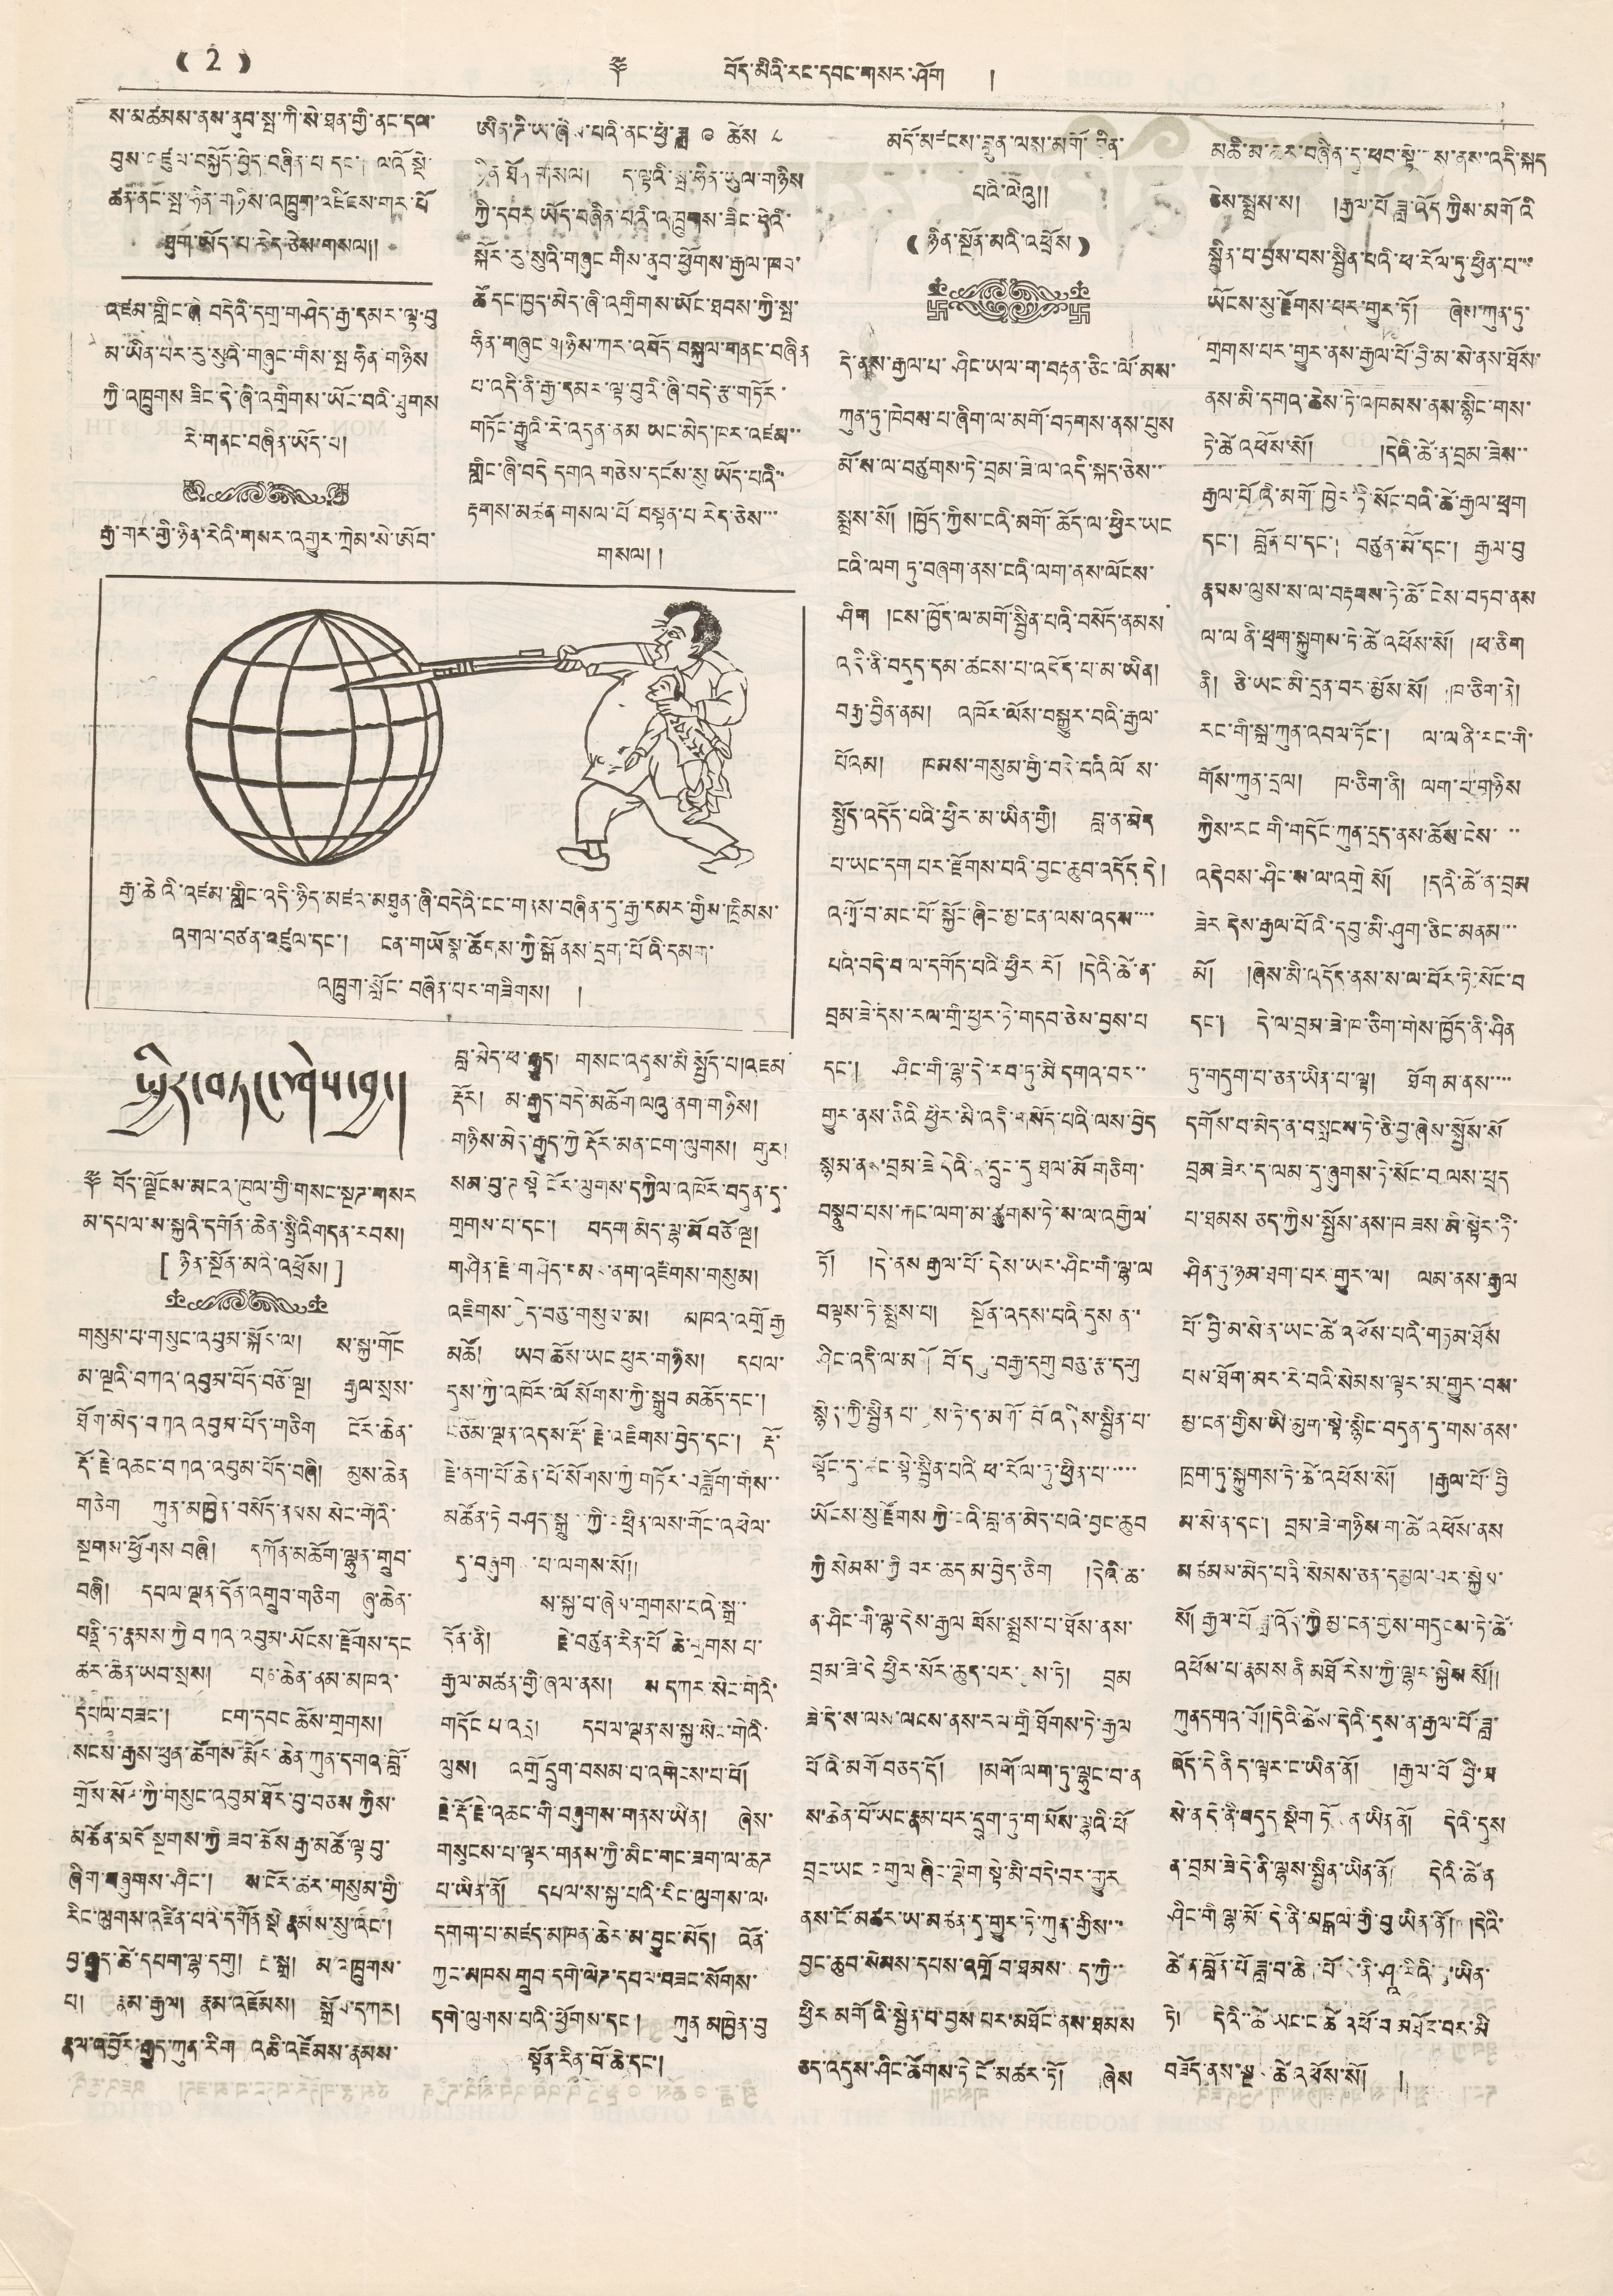(( 2 )) ༈ བོད་མིའི་རང་དབང་གསར་ཤོག །
ས་མཚམས་ནས་ནུབ་སྤ་ཀི་སི་ཐན་གྱི་ནང་དལ་
བུས་འཛུལ་བསྐྱོད་བྱེད་བཞིན་པ དང་། ལའོ སྡེ
ཚང་ནང་སྤ་ཧིན་གཉིས་འཁྲུག་འཛུངས་གར་པོ
ཐུག་ཡོད་པ་རེད་ཅེས་གསལ།།
འཛམ་གླིང་ཞི བདེའི་དགྲ་གཤེད་རྒྱ་དམར་ལྟ་བུ
མ་ཡིན་པར་རུ་སུའི་གཞུང་གིས་སྤ་ཧིན་གཉིས
ཀྱི་འཁྲུགས་ཟིང་དེ་ཞེ་འགྲིགས་ཡོང་བའི་ཐུགས
རེ་གནང་བཞིན་ཡོད་པ།
རྒྱ་གར་གྱི་ཉིན་རེའི་གསར་འགྱུར་ཀྲེམ་སེ་ཨོབ་
ཨིན་ཌི་ཡ་ཟྒེས་པའི་ནང་ཕྱི་ཟླ ༩ ཚེས ༨
ཉིན་ཐོན་གསལ། ད་ལྟའི་སྤ་ཧིན་ཡུལ་གཉིས
ཀྱི་དབར ཡོད་བཞིན་པའི་འཁྲུགས་ཟིང་དེའི་
སྐོར་རུ་སུའི་གཞུང གིས་ནུབ་ཕྱོགས་རྒྱལ་ཁབ་
ཚོ དང་ཁྱད་མེད་ཞི་འགྲིགས་ཡོང་ཐབས་ཀྱི་སྤ་
ཧིན་གཞུང་གཉིས་ཀར་བོད་བསྐུལ་གནང་བཞིན
པ་འདི་ནི་རྒྱ་དམར་ལྟ་བུའི་ཞི་བདེ་རྩ་གཏོར་
གཏོང་རྒྱུའི་རེ་འདུན་ནམ ཡང་མེད་ཁར་འཛམ་་
གླིང་ཞི་བདེ དགའ གཅེས་དངོས་སུ ཡོད་པའི་་
རྟགས་མཚན གསལ་པོ བསྟན་པ་རེད་ཅེས་་་
གསལ། །
རྒྱ་ཆེའི་འཛམ་གླིང་འདི་ཉིད་མཛའ་མཐུན་ཞི་བདེའི་ངང་གནས་བཞིན་དུ་རྒྱ་དམར་གྱིས་ཁྲིམས་
འགལ་བཙན་འཛུལ་དང་། ངན་གཡོ སྣ་ཚོགས་ཀྱི་སྒོ ནས་དྲག་པོའི་དམག་
འཁྲུག་སློང་བཞིན་པར་གཟིགས། །
རང་དབང་
སྤྱིར་བཏང་ཤེས་བྱ།
༈ བོད་ལྗོངས་མངའ་ཁུལ་གྱི་གསང་སྔཌ་གསར
མ་དཔལ་ས་སྐྱའི་དགོན་ཆེན་སྤྱིའི་གདན་རབས།
[ ཉིན་སྔོན་མའི་འཕྲོས། ]
གསུམ་པ་གསུང་འབུམ་སྐོར་ལ། ས་སྐྱ་གོང
མ་ལྔའི་བཀའ་འབུམ་པོད་བཅི་ལྔ། རྒྱལ་སྲས་
ཐོག་མེད་བཀའ འབུམ་པོད་གཅིག ངོར་ཆེན་
རྡོ་རྗེ་འཆང་བཀའ་འབུམ་པོད་བཞི། མུས་ཆེན
གཅིག ཀུན་མཁྱེན་བསོད་ནམས སེང་གེའི་
སྔགས་ཕྱོགས བཞི། དཀོན་མཆོག་ལྷུན་གྲུབ་
བཞི། དཔལ་ལྡན་དོན་གྲུབ་གཅིག ཞུ་ཆེན་
པནྡི་ཏ་རྣམས་ཀྱི བཀའ་འབུམ་ཡོངས་རྫོགས་དང
ཚར་ཆེན་ཡབ་སྲས། པཎ་ཆེན་ནམ་མཁའ་
དཔལ་བཟང་། ངག་དབང ཆོས་གྲགས།
སངས་རྒྱས་ཕུན་ཚོགས་རྨོར་ཆེན་ཀུན་དགའ་བློ་
གྲོས་སོཌ་ཀྱི་གསུང་འབུམ་ཐོར་བུ་བཅས ཀྱིས་
མཚོན་མདོ་སྔགས་ཀྱི་ཟབ་ཆོས་རྒྱ་མཚོ་ལྟ་བུ་
ཞིག་བཞུགས་ཤིང་། ས་ངོར་ཚར་གསུམ་གྱི་
རིང་ལུགས་འཛིན་པའི་དགོན སྡེ རྣམས་སུ་འང་།
བྱ་རྒྱུད་ཚེ་དཔག་ལྷ་དགུ། རྔ་སྒྲ། མ་འཁྲུགས་
པ། རྣམ་རྒྱལ། རྣམ་འཇོམས། སྒྲོལ་དཀར།
རྣལ་འབྱོལ་རྒྱུད་ཀུན་རིག འཆི་འཛོམས་རྣམས་
བླ་མེད་ཕ་རྒྱུད། གསང་འདུས་མི སྤྱོད་པ།འཇམ་
རྡོར། མ་རྒྱུད་བདེ་མཆོག ལའུ་ནག་གཉིས།
གཉིས་མེད་རྒྱུད་ཀྱེ རྡོར་མན་ངག་ལུགས། གུར།
སམ་བུ་ཊ ངོར་ལུགས་དཀྱིལ་འཁོར་བདུན་དུ་
གྲགས་པ་དང་། བདག་མེད་ལྷ་མོ་བཅོ་ལྔ།
གཤིན་རྗེ་གཤེད་མང་ནག་འཇིགས་གསུམ།
འཇིགས་བྱེད་བཅུ་གསུམ་མ། མཁའ་འགྲོ རྒྱ
མཚོ། ཡབ་ཆོས་ཡང ཕུར་གཉིས། དཔལ་
དུས་ཀྱི་འཁོར་ལོ སོགས་ཀྱི་སྒྲུབ མཆོད་དང་།
བཅོམ་ལྡན་འདས་རྡོ་རྗེ་འཇིགས་བྱེད་དང་། རྡོ་
རྗེ་ནག་པོ་ཆེན་པོ་སོགས་ཀྱི་གཏོར་བཟློག་གིས་་
མཚོན་ཏེ བཤད་སྒྲུབ་ཀྱི་འཕྲིན་ལས་གོང་འཕེལ་
དུ་བཞུགས་པ་ལགས་སོ།།
ས་སྐྱ་པ་ཞེས་གྲགས་པའི་སྒྲ་་
དོན་ནི། རྗེ་བཙུན་རིན་པོ ཆེ་གྲགས པ་
རྒྱལ་མཚན་གྱི་ཞལ་ནས། ས དཀར་སེང་གེའི་
གདོང་པ་འདྲ། དཔལ་ལྡན་ས་སྐྱ་སེང་གེའི་
ལུས། འགྲོ དྲུག་བསམ་པ་འགེངས་པ་པོ།
རྗེ་རྡོ་རྗེ་འཆང་གི་བཞུགས་གནས་ཡིན། ཞེས་
གསུངས་པ་ལྟར་གནས་ཀྱི་མིང་གང་ཟག་ལ་ཆཌ
པ་ཡིན་ནོ། དཔལ་ས་སྐྱ་པའི་རིང་ལུགས་ལ་
དགག་པ་མཛད་མཁན་ཆེར་མ་བྱུང་མོད། འོན་
ཀྱང་མཁས་གྲུབ་དགེ་ལེཌ་དཔལ་བཟང་སོགས་
དགེ་ལུགས་པའི་ཕྱོགས་དང་། ཀུན མཁྱེན་བུ
སྟོན་རིན་པོ་ཆེ་དང་།
མདོ་མཛངས་བླུན་ལས་མགོ་བྱིན་
པའི་ལེའུ།།
(( ཉིན་སྔོན་མའི་འཕྲོས ))
དེ་ནས་རྒྱལ་པ་ཤིང་ཡལ་ག་བརྟན་ཅིང་ལོ་མས་
ཀུན་ཏུ་ཁེབས་པ་ཞིག་ལ་མགོ་བཏགས་ནས་པུས
མོ་ས་ལ་བཙུགས་ཏེ་བྲམ་ཟེ་ལ་འདི་སྐད་ཅེས་་
སྨྲས་སོ། །ཁྱོད་ཀྱིས་ངའི་མགོ་ཆོད་ལ་ཕྱིར་ཡང
ངའི་ལག ཏུ་བཞག་ནས་ངའི་ལག་ནས་ལོངས་
ཤོག །ངས་ཁྱོད་ལ་མགོ་སྦྱིན་པའི་བསོད་ནམས
འདི་ནི་བདུད་དམ་ཚངས་པ་འདོད་པ་མ་ཡིན།
བརྒྱ་བྱིན་ནམ། འཁོར་ལོས་བསྒྱུར་བའི་རྒྱལ་
པོའམ། ཁམས་གསུམ་གྱི་བདེ་བའི་ལོ ས་
སྤྱོད་འདོད་པའི་ཕྱིར་མ་ཡིན་གྱི། བླ་ན་མེད
པ་ཡང་དག པར་རྫོགས་པའི་བྱང་ཆུབ་འདོད དེ།
འགྲོ་བ་མང་པོ་སྐྱོང་ཞིང་མྱ་ངན་ལས་འདས་་་་
པའི་བདེ་བ་ལ་དགོད་པའི་ཕྱིར རོ། །དེའི་ཚེ་ན་
བྲམ་ཟེ་དས་རལ་གྲི་ཕྱར་ཏེ་གདབ་ཅེས་བྱས་པ
དང་། ཤིང་གི་ལྷ་ཏེ་རབ་ཏུ་མི་དགའ་བར་་
གྱུར་ནས་ཅིའི ཕྱིར་མི་འདི་གསོད་པའི་ལས་བྱེད
སྙམ་ནས་བྲམ་ཟེ དེའི་ ་དྲུང་དུ ཐལ་མོ གཅིག་
བསྣུབ་པས་རྐང་ལག་མ་ཚུགས་ཏེ་ས་ལ་འགྱེལ་
ཏོ། །དེ་ནས་རྒྱལ་པོ་དེས་ཡར་ཤིང་གི་ལྷ་ལ་
བལྟས་ཏེ་སྨྲས་པ། སྔོན་འདས་པའི་དུས ན་་
ཤིང་འདི་ལ་མགོ བོ་དགུ་བརྒྱ་དགུ བཅུ་རྩ་དགུ
སྙེད་ཀྱི་སྦྱིན པ་བྱས་ཏེ་ད་མགོ་བོ་འདིས་སྦྱིན་པ་
སྙོང་དུ་ཚང་སྟེ་སྦྱིན་པའི ཕ་རོལ་རུ་ཕྱིན་པ་་་་་
ཡོངས་སུ་རྫོགས ཀྱི་ངའི་བླ་ན་མེད་པའི་བྱང་ཆུབ
ཀྱི སེམས་ཀྱི་བར་ཆད་མ་བྱེད་ཅིག །དེའི་ཆ་
ན་ཤིང་གི་ལྷ་དེས་རྒྱལ པོས་སྨྲས་པ་ཐོས་ནས་
བྲམ་ཟེ་དེ ཕྱིར་སོར་ཆུད་པར་བྱས་ཏོ། བྲམ
སེ་དེ་ས་ལས་ལངས་ནས་རལ་གྲི ཐོགས་ཏེ་རྒྱལ
པོའི་མགོ་བཅད་དོ། །མགོ་ལག་ཏུ་ལྷུང་བ་ན
ས་ཆེན་པོ་ཡང་རྣམ་པར་དྲུག་ཏུ་གཡོས་ལྷའི་ཕོ
བྲང་ཡང འགུལ་ཞིང་སྡེག་སྟེ་མི་བདེ་བར་གྱུར
ན་སྔོ་མཚར་ཡ་མཚན་དུ་གྱུར་ཏེ་ཀུན་གྱིས་་་
བྱང་ཆུབ་སེམས་དཔས་འགྲོ བ་ཐམས་ཅད་ཀྱི་་
ཕྱིར་མགོའི་སྦྱིན་པ་བྱས་པར་མཐོང་ནས་ཐམས
ཅད་འདུས་ཤིང་ཚོགས་ཏེ་ངོ་མཚར་ཏོ། ཞེས
མཆི་མ་ཆར་བཞིན་དུ་ཕབ་སྟེ་ ས་ནས་འདི་སྐད
ཅེས་སྨྲས་ས། །རྒྱལ་པོ་ ཟླ་འོད་ཀྱིས་མགོའི
སྦྱིན་པ་བྱས་པས་སྦྱིན་པའི་ཕ་རོལ་ཏུ་ཕྱིན་པ་་་
ཡོངས་སུ་རྫོགས་པར་གྱུར་ཏོ། ཞེས་ཀུན་ཏུ་
གྲགས་པར་གྱུར་ནས་རྒྱལ་པོ་བྱི་མ་སེ་ནས་ཐོས་
ནས་མི་དགའ་ཆེས་ཏེ་འཁམས་ནས་སྙིང་གས་
རེ་ཚེ འཕོས་སོ། །དེའི་ཚེ་ན་བྲམ་ཟེས་་
རྒྱལ་པོའི་མགོ་ཁྱེར་ཏེ་སོང་བའི་ཚེ་རྒྱལ་ཕྲག
དང་། བློན་པ་དང་། བཙུན་མོ་དང་། རྒྱལ་བུ
རྣམས་ལུས་ས་ལ་བརྟབས་ཏེ་ཆོ་ངེས་བཏབ་ནས
ལ་ལ ནི་ཕྲག་སྐྱུགས་ཏེ་ཚེ འཕོས་སོ། །ཕ་ཅིག
ནི། ཅི་ཡང་མི་དྲན་བར་མྱོས་སོ། ཁ་ཅིག་ནེ།
རང་གི་སྐྲ་ཀུན་འབལ་ཏོང་། ལ་ལ་ནི་རང་གི་
གོས་ཀུན་དྲལ། ཁ་ཅིག་ནི། ལག་པ་གཉིས
ཀྱིས་རང་གི་གདོང་ཀུན་དྲད་ནས་ཆོས་ངེས་ ་་
འདེབས་ཤིང་ས་ལ་འགྲེ སོ། །དའི་ཚེ་ན་བྲམ
ཟེར དེས་རྒྱལ་པོའི་དབུ་མི་ཤུག་ཅིང་མནམ་་་
མོ། །ཞེས་མི་འདོད་ནས་ས་ལ་པོར་ཏེ་སོང་བ
དང་། དེ་ལ་བྲམ་ཟེ་ཁ་ཅིག་གིས་ཁྱོད་ནི་ཤིན
ཏུ་གདུག་པ་ཅན་ཡིན་པ་ལྟ། ཐོག་མ་ནས་་་་
དགོས་པ་མེད་ན་བསླངས་ཏེ་ཅི་བྱ་ཞེས་སྤྱོད་སོ
བྲམ་ཟེར་ད་ལམ་དུ་ཞུགས་ཏེ་སོང་བ ལས་ཕྲད
པ་ཐམས ཅད་ཀྱིས་སྤྱོས་ནས་ཁ ཟས་མི་སྟེར་ཏི་
ཤིན་ཏུ་ཉམ་ཐག་པར་གྱུར་ལ། ལམ་ནས་རྒྱལ
པོ་བྱི་མ་སེ་ན་ཡང་ཚེ་འཕོས་པའི་གཏམ་ཐོས
པས་ཐོག་མར་རེ་བའི་སེམས་ལྟར་མ་གྱུར་བས་
མྱ་ངན་གྱིས་ཡི་མུག་སྟེ་སྙིང་བདུན་དུ་གས་ནས་
ཁྲག་ཏུ་སྐྱུགས་ཏེ་ཚེ་འཕོས་སོ། །རྒྱལ་པོ་བྱི
མ་སེ་ན་དང་། བྲམ་ཟེ་གཉིས་ག་ཚེ་འཕོས་ནས
མཚམས་མེད་པའི་སེམས་ཅན་དམྱལ་བར་སྐྱེས་
སོ། རྒྱལ་པོ ཟླ་འོད་ཀྱི་མྱ་ངན་གྱིས་གདུངས་ཏེ་ཚེ་
འཕོས་པ་རྣམས ནི་མཐོ་རིས་ཀྱི་ལྷར་སྐྱེས སོ།།
ཀུནདགའ་བོ།།དེའི་ཚེས་དེའི་དུས་ན་རྒྱལ་པོ་ཟླ་
འོད་དེ་ནི་ད་ལྟར་ང་ཡིན་ནོ། །རྒྱལ་པོ བྱི་མ
སེ་ན དེ་ནི་བདུད སྡིག་ཏོ ན་ཡིན་ནོ། དེའི་དུས
ན་བྲམ་ཟེ་དེ་ནི་ལྷས་སྦྱིན་ཡིན་ནོ། དེའི་ཚེ ན
ཤིང་གི ལྷ་མོ་དེ་ནི་མངྒལ་གྱི་བུ་ཡིན་ནོ། །དེའི་
ཚེ ན་བློན་པོ་ཟླ་བ་ཆེ ་པོ་ ནི་ཤཱ་རིའི་བུ་ཡིན་
ཏེ། དེའི་ཚེ ཡང་ང་ཚོ འཕོ་བ་མཐོང་བར་མི
བཟོད་ནས་སྔ ཚེ་འཕོས་སོ། །
